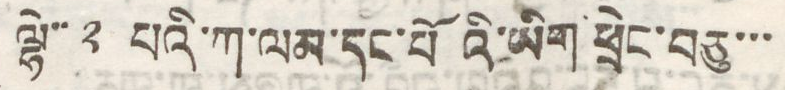ལྷེ་་ ༢ པའི་ཀ་ལམ་དང་པོའི་ཡིག ཕྲེང་བཅུ་་་
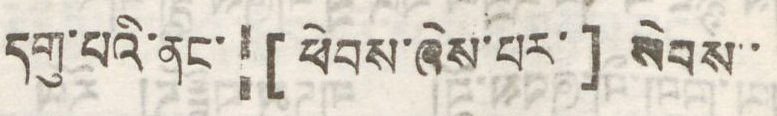དགུ་པའི་ནང་།[ ཕེབས་ཞེས་པར་ ] སེམས་་
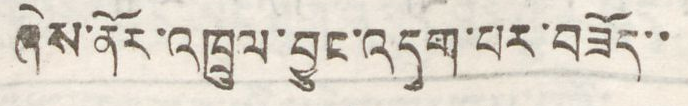ཞེས་ནོར་འཁྲུལ་བྱུང་འདུག་པར་བཟོད་་
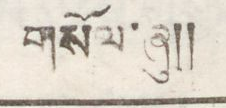གསོལ་ཞུ།།
